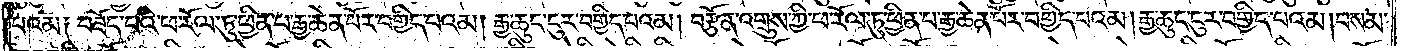པའམ༑ བཟོད་པའི་ཕ་རོལ་ཏུ་ཕྱིན་པ་རྒྱ་ཆེན་པོར་བགྱིད་པའམ། རྒྱ་ཆུང་ངུར་བགྱིད་པའམ། བརྩོན་འགྲུས་ཀྱི་ཕ་རོལ་ཏུ་ཕྱིན་པ་རྒྱ་ཆེན་པོར་བགྱིད་པའམ། རྒྱ་ཆུང་ངུར་བགྱིད་པའམ། བསམ་
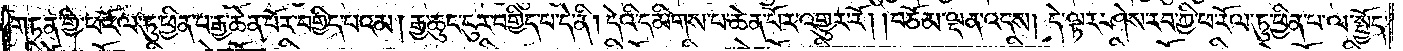གཏན་གྱི་ཕ་རོལ་ཏུ་ཕྱིན་པ་རྒྱ་ཆེན་པོར་བགྱིད་པའམ། རྒྱ་ཆུང་ངུར་བགྱིད་པ་དེ་ནི། དེའི་དམིགས་པ་ཆེན་པོར་འགྱུར་རོ། །བཅོམ་ལྡན་འདས། དེ་ལྟར་ཤེས་རབ་ཀྱི་ཕ་རོལ་ཏུ་ཕྱིན་པ་ལ་སྤྱོད་
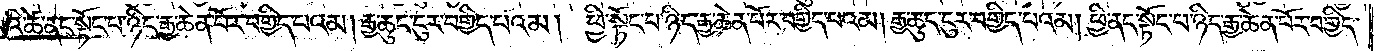པའི་ཚེ་ནང་སྟོང་པ་ཉིད་རྒྱ་ཆེན་པོར་བགྱིད་པའམ། རྒྱ་ཆུང་ངུར་བགྱིད་པའམ། ཕྱི་སྟོང་པ་ཉིད་རྒྱ་ཆེན་པོར་བགྱིད་པའམ། རྒྱ་ཆུང་ངུར་བགྱིད་པའམ། ཕྱི་ནང་སྟོང་པ་ཉིད་རྒྱ་ཆེན་པོར་བགྱིད་
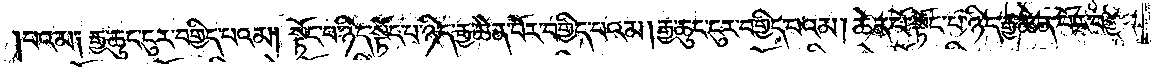པའམ༑ རྒྱ་ཆུང་ངུར་བགྱིད་པའམ། སྟོང་པ་ཉིད་སྟོང་པ་ཉིད་རྒྱ་ཆེན་པོར་བགྱིད་པའམ། རྒྱ་ཆུང་ངུར་བགྱིད་པའམ། ཆེན་པོ་སྟོང་པ་ཉིད་རྒྱ་ཆེན་པོར་བགྱིད་
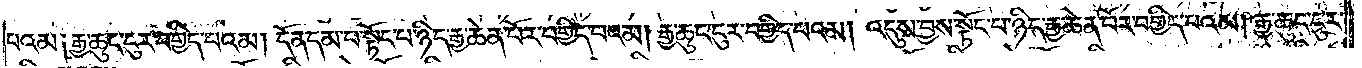པའམ༑ རྒྱ་ཆུང་ངུར་བགྱིད་པའམ། དོན་དམ་པ་སྟོང་པ་ཉིད་རྒྱ་ཆེན་པོར་བགྱིད་པའམ། རྒྱ་ཆུང་ངུར་བགྱིད་པའམ། འདུས་བྱས་སྟོང་པ་ཉིད་རྒྱ་ཆེན་པོར་བགྱིད་པའམ། རྒྱ་ཆུང་ངུར་
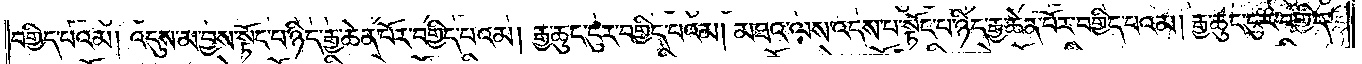བགྱིད་པའམ། འདུས་མ་བྱས་སྟོང་པ་ཉིད་རྒྱ་ཆེན་པོར་བགྱིད་པའམ། རྒྱ་ཆུང་ངུར་བགྱིད་པའམ། མཐའ་ལས་འདས་པ་སྟོང་པ་ཉིད་རྒྱ་ཆེན་པོར་བགྱིད་པའམ། རྒྱ་ཆུང་ངུར་བགྱིད་
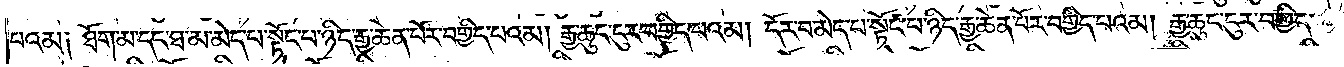པའམ༑ ཐོག་མ་དང་ཐ་མ་མེད་པ་སྟོང་པ་ཉིད་རྒྱ་ཆེན་པོར་བགྱིད་པའམ། རྒྱ་ཆུང་ངུར་བགྱིད་པའམ། དོར་བ་མེད་པ་སྟོང་པ་ཉིད་རྒྱ་ཆེན་པོར་བགྱིད་པའམ། རྒྱ་ཆུང་ངུར་བགྱིད་
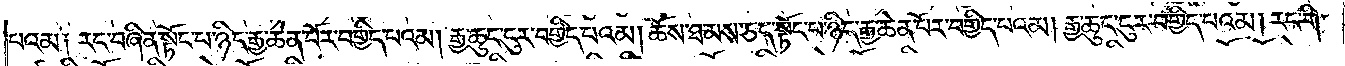པའམ༑ རང་བཞིན་སྟོང་པ་ཉིད་རྒྱ་ཆེན་པོར་བགྱིད་པའམ། རྒྱ་ཆུང་ངུར་བགྱིད་པའམ། ཆོས་ཐམས་ཅད་སྟོང་པ་ཉིད་རྒྱ་ཆེན་པོར་བགྱིད་པའམ། རྒྱ་ཆུང་ངུར་བགྱིད་པའམ། རང་གི་
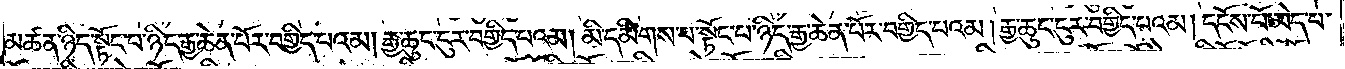མཚན་ཉིད་སྟོང་པ་ཉིད་རྒྱ་ཆེན་པོར་བགྱིད་པའམ། རྒྱ་ཆུང་ངུར་བགྱིད་པའམ། མི་དམིགས་པ་སྟོང་པ་ཉིད་རྒྱ་ཆེན་པོར་བགྱིད་པའམ། རྒྱ་ཆུང་ངུར་བགྱིད་པའམ། དངོས་པོ་མེད་པ་
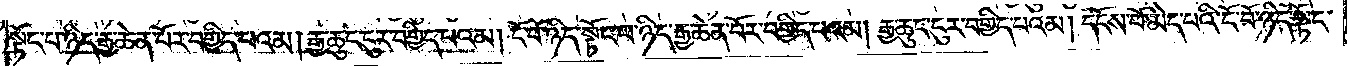སྟོང་པ་ཉིད་རྒྱ་ཆེན་པོར་བགྱིད་པའམ། རྒྱ་ཆུང་ངུར་བགྱིད་པའམ། ངོ་བོ་ཉིད་སྟོང་པ་ཉིད་རྒྱ་ཆེན་པོར་བགྱིད་པའམ། རྒྱ་ཆུང་ངུར་བགྱིད་པའམ། དངོས་པོ་མེད་པའི་ངོ་བོ་ཉིད་སྟོང་
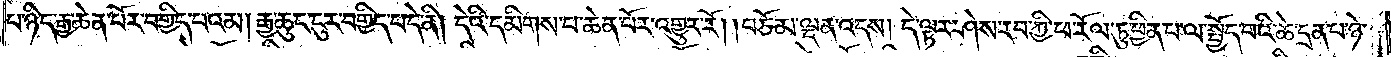པ་ཉིད་རྒྱ་ཆེན་པོར་བགྱིད་པའམ། རྒྱ་ཆུང་ངུར་བགྱིད་པ་དེ་ནི། དེའི་དམིགས་པ་ཆེན་པོར་འགྱུར་རོ། །བཅོམ་ལྡན་འདས། དེ་ལྟར་ཤེས་རབ་ཀྱི་ཕ་རོལ་ཏུ་ཕྱིན་པ་ལ་སྤྱོད་པའི་ཚེ་དྲན་པ་ཉེ་
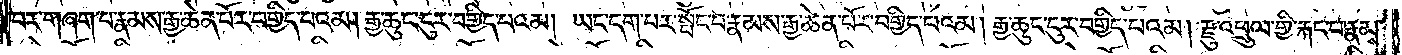བར་གཞག་པ་རྣམས་རྒྱ་ཆེན་པོར་བགྱིད་པའམ། རྒྱ་ཆུང་ངུར་བགྱིད་པའམ། ཡང་དག་པར་སྤོང་པ་རྣམས་རྒྱ་ཆེན་པོར་བགྱིད་པའམ། རྒྱ་ཆུང་ངུར་བགྱིད་པའམ། རྫུ་འཕྲུལ་གྱི་རྐང་པ་རྣམས་
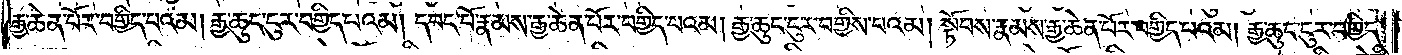རྒྱ་ཆེན་པོར་བགྱིད་པའམ། རྒྱ་ཆུང་ངུར་བགྱིད་པའམ། དབང་པོ་རྣམས་རྒྱ་ཆེན་པོར་བགྱིད་པའམ། རྒྱ་ཆུང་ངུར་བགྱིད་པའམ། སྟོབས་རྣམས་རྒྱ་ཆེན་པོར་བགྱིད་པའམ། རྒྱ་ཆུང་ངུར་བགྱིད་
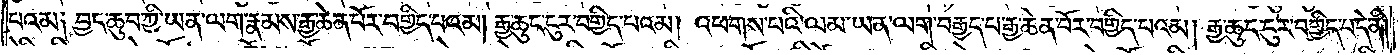པའམ༑ བྱང་ཆུབ་ཀྱི་ཡན་ལག་རྣམས་རྒྱ་ཆེན་པོར་བགྱིད་པའམ། རྒྱ་ཆུང་ངུར་བགྱིད་པའམ། འཕགས་པའི་ལམ་ཡན་ལག་བརྒྱད་པ་རྒྱ་ཆེན་པོར་བགྱིད་པའམ། རྒྱ་ཆུང་ངུར་བགྱིད་པ་དེ་ནི།
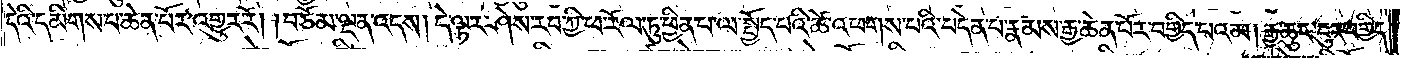དེའི་དམིགས་པ་ཆེན་པོར་འགྱུར་རོ། །བཅོམ་ལྡན་འདས། དེ་ལྟར་ཤེས་རབ་ཀྱི་ཕ་རོལ་ཏུ་ཕྱིན་པ་ལ་སྤྱོད་པའི་ཚེ་འཕགས་པའི་བདེན་པ་རྣམས་རྒྱ་ཆེན་པོར་བགྱིད་པའམ། རྒྱ་ཆུང་ངུར་བགྱིད་
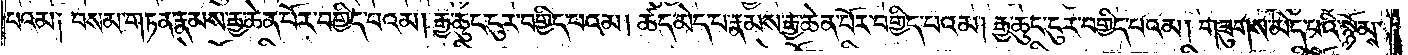པའམ༑ བསམ་གཏན་རྣམས་རྒྱ་ཆེན་པོར་བགྱིད་པའམ། རྒྱ་ཆུང་ངུར་བགྱིད་པའམ། ཚད་མེད་པ་རྣམས་རྒྱ་ཆེན་པོར་བགྱིད་པའམ། རྒྱ་ཆུང་ངུར་བགྱིད་པའམ། གཟུགས་མེད་པའི་སྙོམས་
